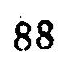88
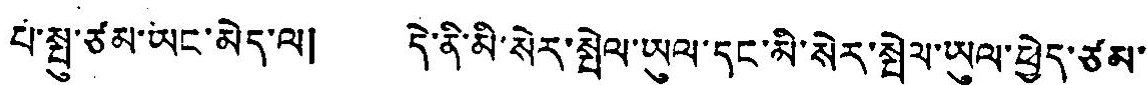པ་སྤུ་ཙམ་ཡང་མེད་ལ། དེ་ནི་མི་སེར་སྤེལ་ཡུལ་དང་མི་སེར་སྤེལ་ཡུལ་ཕྱེད་ཙམ་
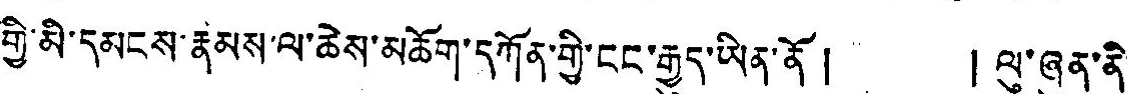གྱི་མི་དམངས་རྣམས་ལ་ཆེས་མཆོག་དཀོན་གྱི་ངང་རྒྱུད་ཡིན་ནོ ། །ལུ་ཞུན་ནི་
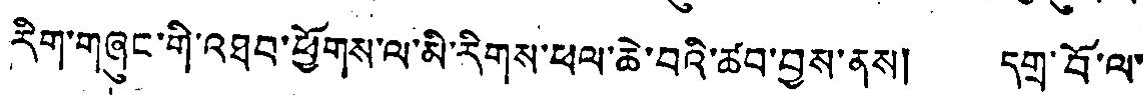རིག་གཞུང་གི་འཐབ་ཕྱོགས་ལ་མི་རིགས་ཕལ་ཆེ་བའི་ཚབ་བྱས་ནས། དགྲ་བོ་ལ་
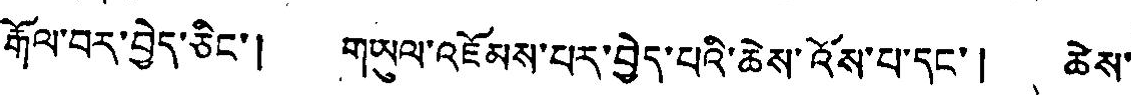རྒོལ་བར་བྱེད་ཅིང་། གཡུལ་འཇོམས་པར་བྱེད་པའི་ཆེས་འོས་པ་དང་། ཚེས་
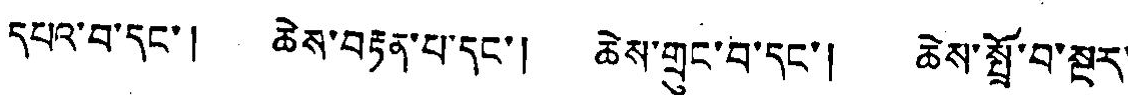དཔའ་བ་དང་། ཆེས་བརྟན་པ་དང་། ཆེས་གྲུང་བ་དང་། ཆེས་སྤྲོ་བ་སྔར་
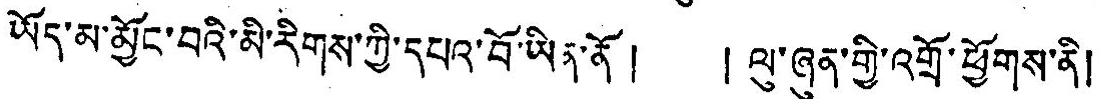ཡོད་མ་སྱོང་བའི་མི་རིགས་ཀྱི་དཔའ་བོ་ཡིན་ནོ། །ལུ་ཞན་གྱི་འགྲོ་ཕྱོགས་ནི།
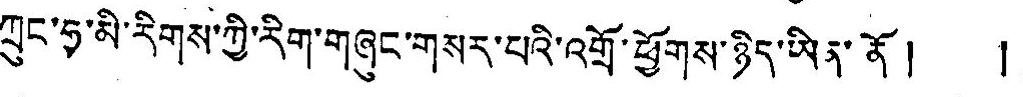ཀྲུང་ཧྭ་མི་རིགས་ཀྱི་རིག་གཞུང་གསར་པའི་འགྲོ་ཕྱོགས་ཉིད་ཡིན་ནོ། །
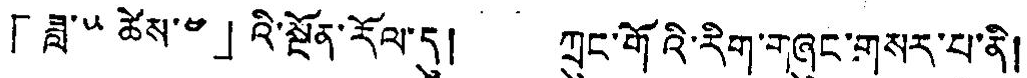「ཟླ་༥ ཚེས་༤」འི་སྔོན་རོལ་དུ། ཀྲུང་གོའི་རིག་གཞུང་གསར་པ་ནི།
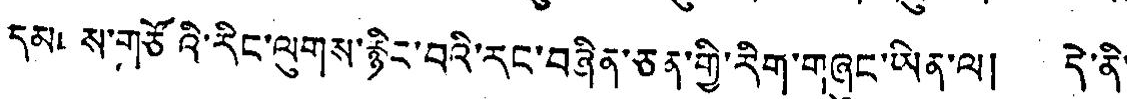དམངས་གཙོའི་རིང་ལུགས་རྙིང་བའི་རང་བཞིན་ཅན་གྱི་རིག་གཞུང་ཡིན་ལ། དེ་ནི་
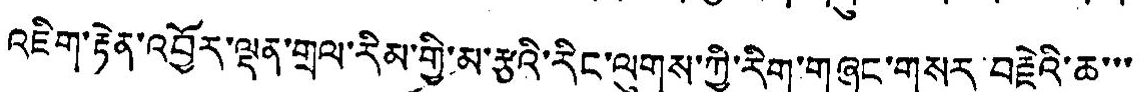འཇིག་རྟེན་འབྱོར་ལྡན་གྲལ་རིམ་གྱི་མ་རྩའི་རིང་ལུགས་ཀྱི་རིག་གཞུང་གསར་བརྗེའི་ཆ་་་
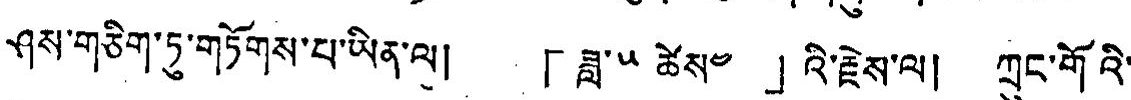ཤས་གཅིག་ཏུ་གཏོགས་པ་ཡིན་ལ། 「ཟླ་༥ ཚེས༤ 」འི་རྗེས་ལ། ཀྲུང་གོའི་
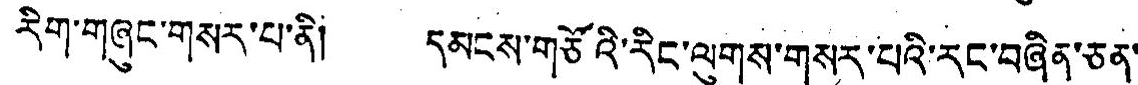རིག་གཞུང་གསར་པ་ནི། དམངས་གཙོའི་རིང་ལུགས་གསར་པའི་རང་བཞིན་ཅན་
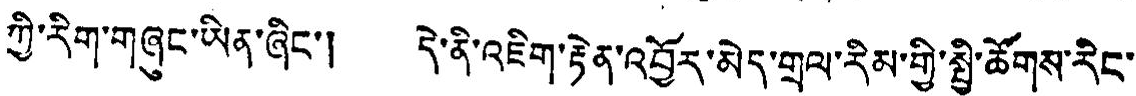ཀྱི་རིག་གཞུང་ཡིན་ཞིང་། དེ་ནི་འཇིག་རྟེན་འབྱོར་མེད་གྲལ་རིམ་གྱི་སྤྱི་ཚོགས་རིང་
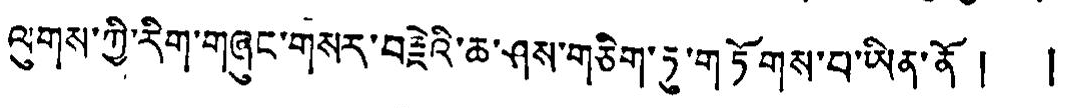ལུགས་ཀྱི་རིག་གཞུང་གསར་བརྗེའི་ཆ་ཤས་གཅིག་ཏུ་གཏོགས་བ་ཡིན་ནོ། །
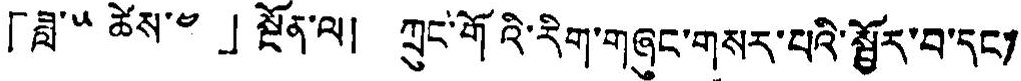「ཟླ་༥ ཚེས་༤ 」སྔོན་ལ། ཀྲུང་གོའི་རིག་གཞུང་གསར་པའི་སྦྱོར་བ་དང་།
